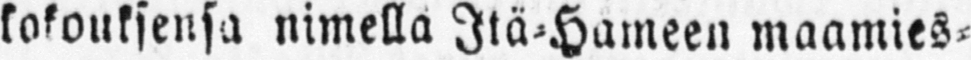kokouksensa nimellä Itä-Hämeen maamies-
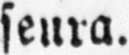seura.
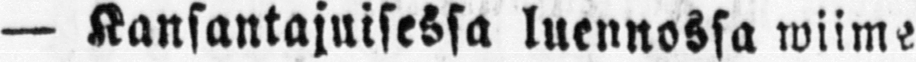— Kansantajuisessa luennossa wiime
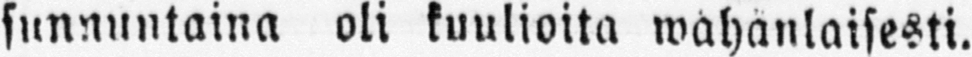sunnuntaina oli kuulioita wähänlaisesti.
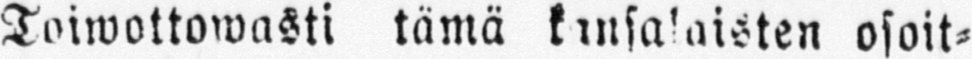Toiwottowasti tämä kansalaisten osoit-
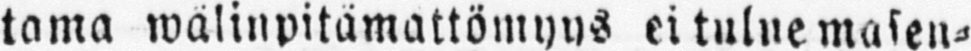tama wälinpitämättömyys ei tulne masen-
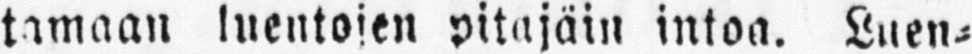tamaan luentojen pitäjäin intoa. Luen-
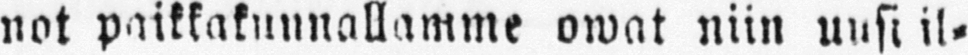not paikkakunnallamme owat niin uusi il-
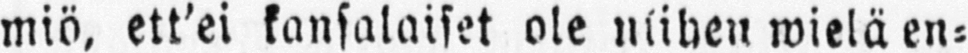miö, ett'ei kansalaiset ole niihen wielä en-
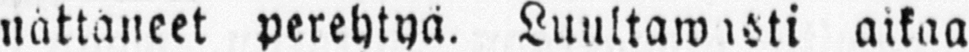nättäneet perehtyä. Luultawasti aikaa
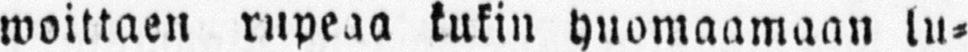woittaen rupeaa kukin huomaamaan lu-
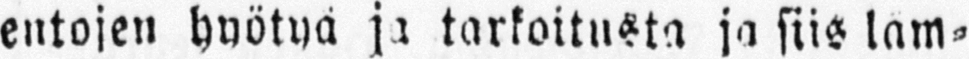entojen hyötyä ja tarkoitusta ja siis läm-
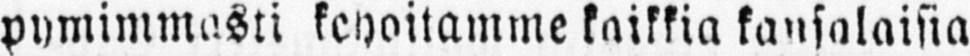pymimmasti kehoitamme kaikkia kansalaisia
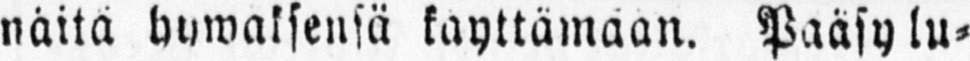näitä hywäksensä käyttämään. Pääsy lu-
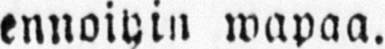ennoihin wapaa.
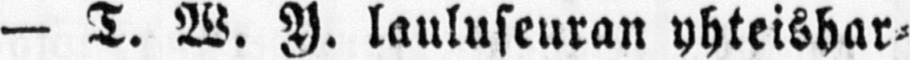— T. W. Y. lauluseuran yhteishar-
